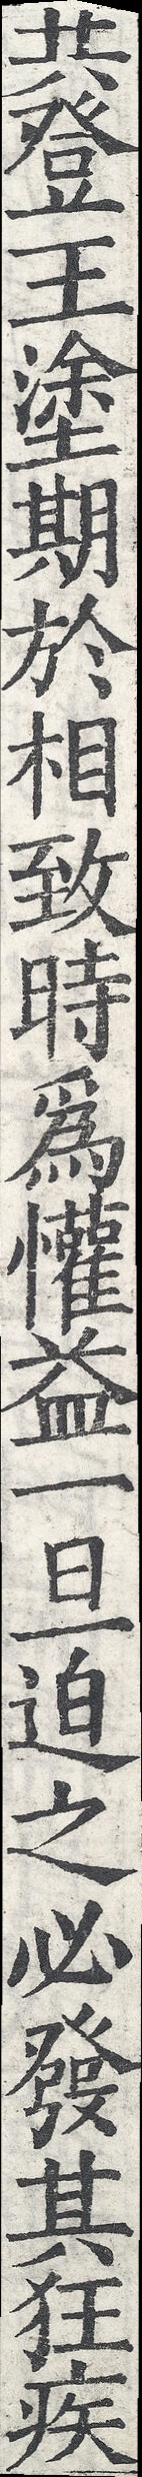共登王塗期於相致時為懽益一旦迫之必發其狂疾
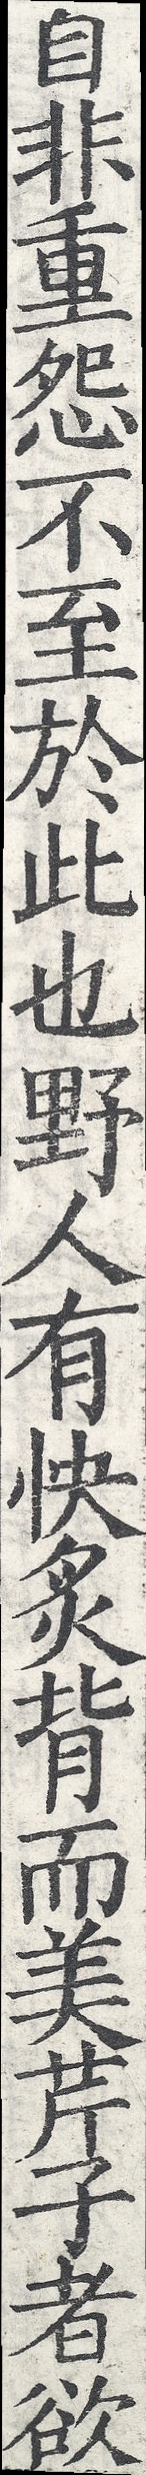自非重怨不至於此也野人有快炙背而美芹子者欲
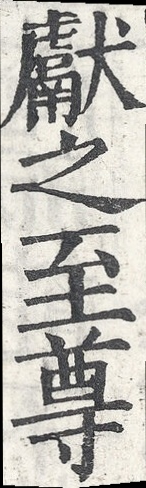獻之至尊
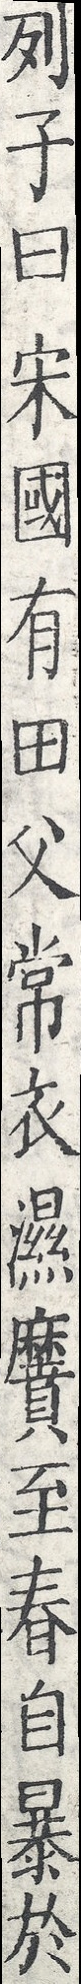列子曰宋國有田父常衣濕黂至春自暴於
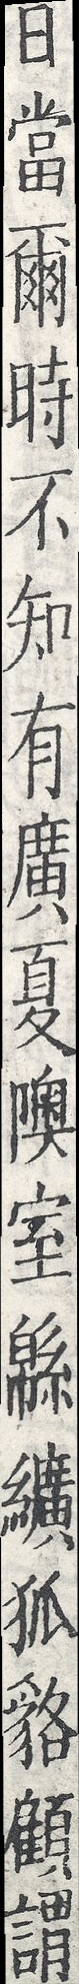日當爾時不知有廣夏隩室緜纊狐貉顧謂
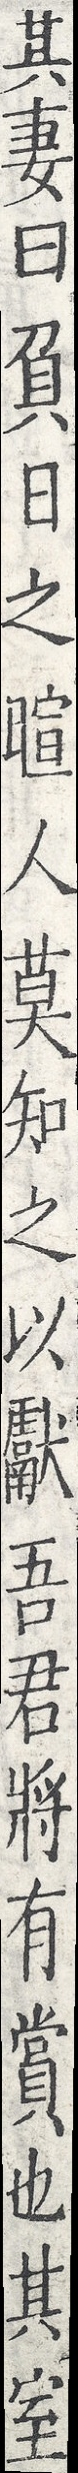其妻曰負日之暄人莫知之以獻吾君將有賞也其室
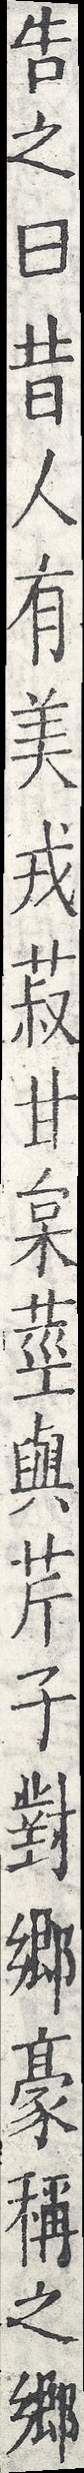告之曰昔人有美戎菽甘枲莖與芹子對鄉豪稱之鄉
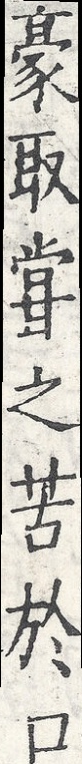豪取嘗之苦於口
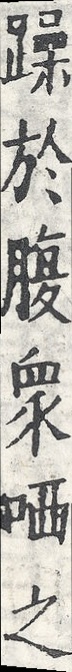躁於腹眾哂之
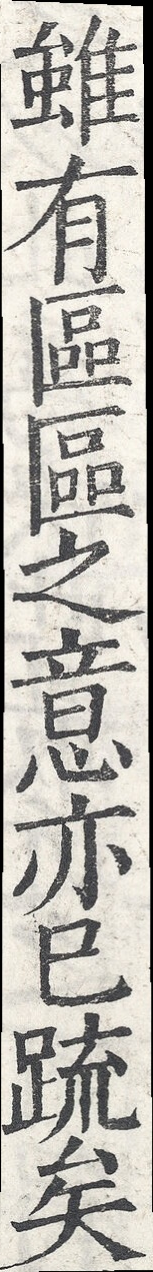雖有區區之意亦已疏矣
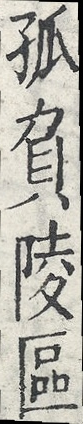孤負陵區
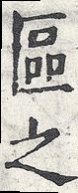區之
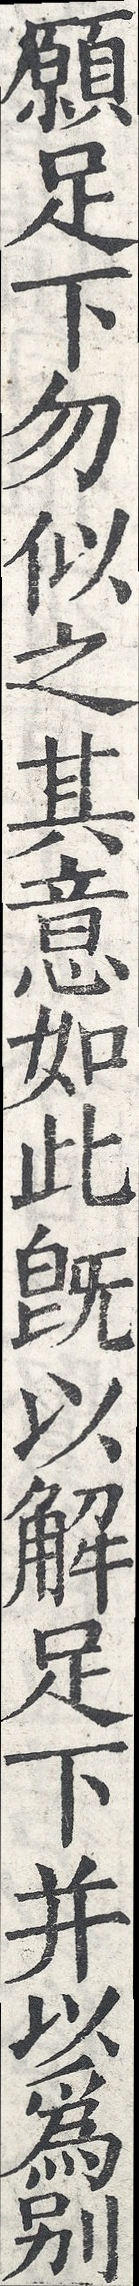願足下勿似之其意如此旣以解足下幷以為別
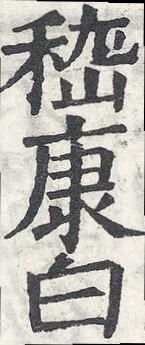嵇康白
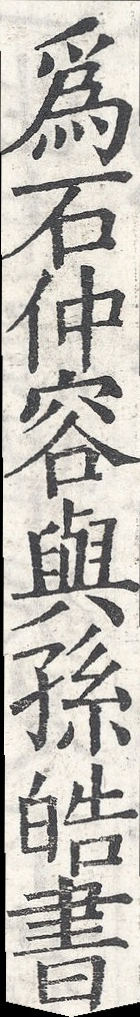為石仲容與孫皓書
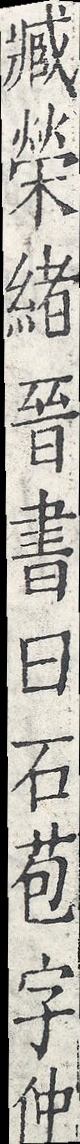臧榮緒晉書曰石苞字仲
